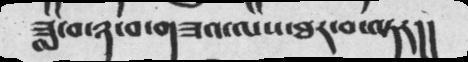ཟླ་བ་ཉ་བ་གཟའ་ལས་ཐར་བ་ལྟར།།
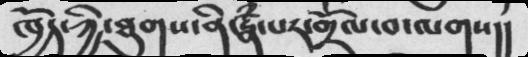ཁྱོད་ཀྱི་ཐུགས་ནི་རྣཾ་པར་གྲོལ་བ་ལགས།།
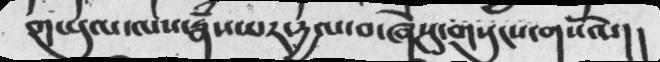གཡུལ་ལས་རྣཾས་པར་དྱལ་བ་ཞེསུ་གསུངས་གསོལ།།
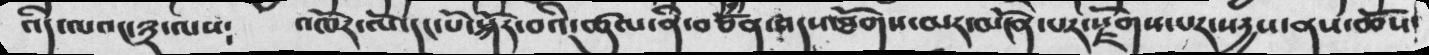འདི་ལའང་༣་ལས༴  འཁོར་ལོ་དང་པོ་སྐོར་བའི་ཚུལ་ནི་བཅོཾན་འདས་ཐོགས་མར་མངོན་པར་སྫོགས་པར་སདྱས་ནས་ཆོས་
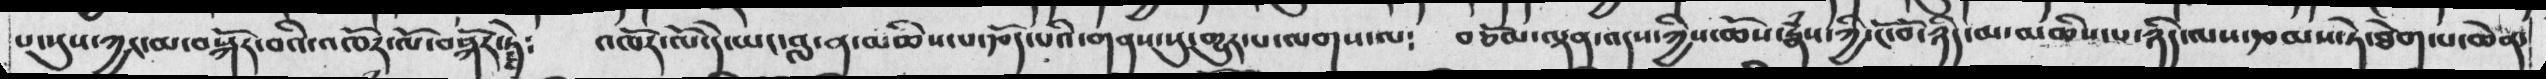པ་སུས་ཀྱང་མ་བསྐོར་བའི་འཁོར་ལོ་བསྐོར་ཏེ༴  འཁོར་ལོ་དེ་ཡང་བླ་ན་མཆིས་པ་རྩོད་པའི་གནས་སུ་གྱུར་པ་ལགས་ལ༴  བཅོམ་ལྡན་འདས་ཀྱིས་ཆོས་རྣཾས་ཀྱི་ངོ་བོ་ཉིད་མ་མཆིས་པ་ཉིད་ལས་རྩམས་ཏེ་ཐེག་པ་ཆེན་
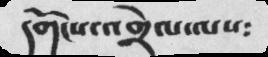དགོངས་འགྲེལ་ལས༴
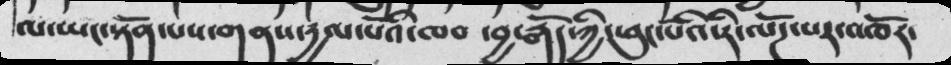ལ་ཡང་སྟོན་པས་གནས་དྱལ་པོའི་ཁབ ་བྱ་རྒོད་ཀྱི་ཕུང་པོའི་རི་ལོཌ་པར་འཁོར་
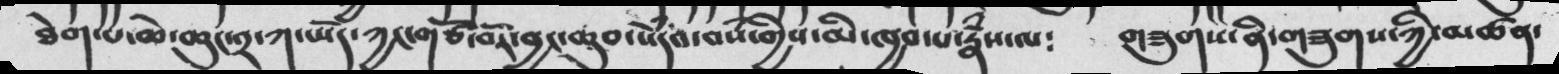ཐེག་པ་ཆེ་ཆུང་༢་ཀ་ཡོད་ཀྱང་གཙོ་བོར་བྱང་ཆུབ་སེཾདའ་བསཾ་གྱིས་མི་ཁྱབ་པ་རྣཾས་ལ༴   གཟུགས་ནི་གཟུགས་ཀྱི་མཚན་
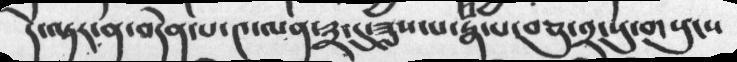དེ་ལྟར་ན་བདེན་པ་༤་ལན་༣་དུ་ཟླས་པ་རྣཾ་པ་བཅུ་༢་སུ་གསུངས
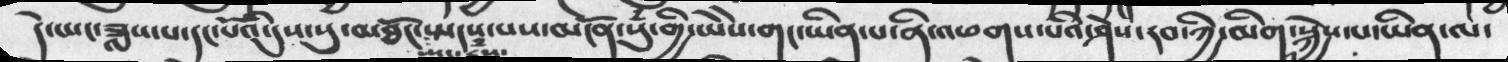དེ་ཡང་ཟླས་པ་དང་པོའི་དུས་སུ་མཐོང་སྤངས་པས་མངོན་སུཾ་གྱི་ཡེེས་གང་ཡིན་པ་ནི་འཕགས་པའི་ཤེས་རབ་ཀྱི་མིག་སྐྱེས་པ་ཡིན་ལ་
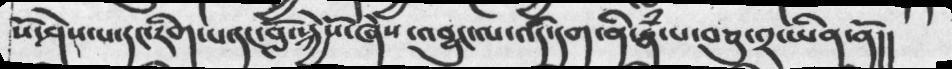སོ་ཤེས་པ་དང་རིག་པ་དང་བློ་སྐྱེསོ་ཞེས་འབྱུང་ལ་འདི་དག་ནི་རྣཾ་པ་བཅུ་༢་ཡིན་ནོ།།
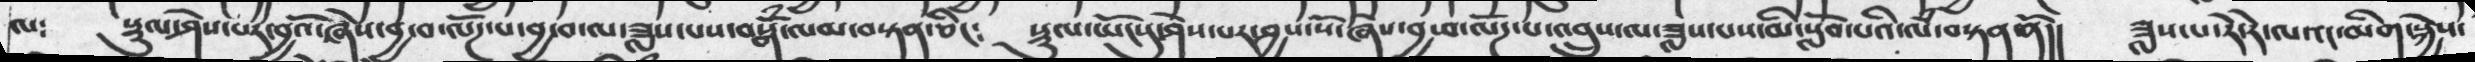ལ༴  སྡུལ་ཤེས་པར་བྱའོ་ཞེས་བྱ་བ་ལོཌ་པ་བྱ་བ་ལ་ཟླས་པས་བསྒོཾ་ལམ་བསྟན་ཅིང༴  སྡུལ་ཡོངསུ་ཤེས་པར་བྱས་སོ་ཞེས་བྱ་བ་ལོཌ་པ་འབྲུས་ལ་ཟླས་པས་མི་སློབ་པའི་ལཾ་བསྟན་ནོ།།  ཟླས་པ་རེ་རེ་ལའང་མིག་སྐྱེས་
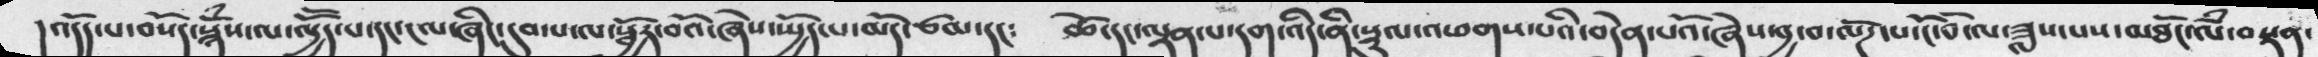། འདོད་པ་བསོད་སྙོཾས་ལ་ལྱོོད་པ་དང་ངལ་ཞིང་དུབ་པ་ལ་སྦྱོར་བའོ་ཞེས་སྤྱོད་པ་མདོ་ཙམ་དང༴  ཚེ་དང་ལྡན་པ་དག་འདི་ནི་སྡུལ་འཕགས་པའི་བདེན་པའོ་ཞེས་བྱ་བ་ལོཌ་པ་ངོ་བོ་ལ་ཟླས་པས་མཐོང་ལཾ་བསྟན་
